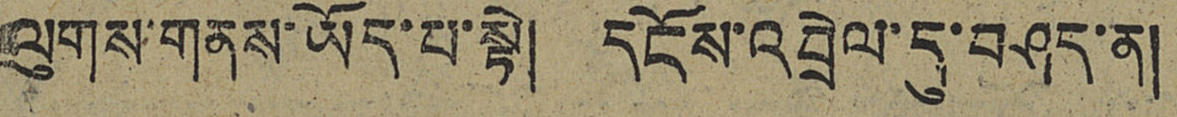ལུགས་གནས་ཡོད་པ་སྟེ། དངོས་འབྲེལ་དུ་བཤད་ན།
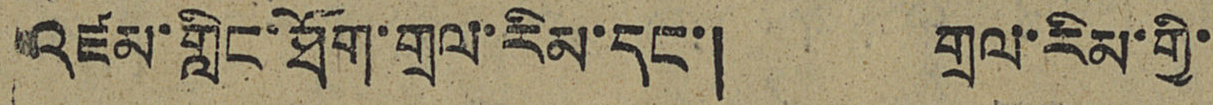འཛམ་གླིང་ཐོག་གྲལ་རིམ་དང་། གྲལ་རིམ་གྱི་
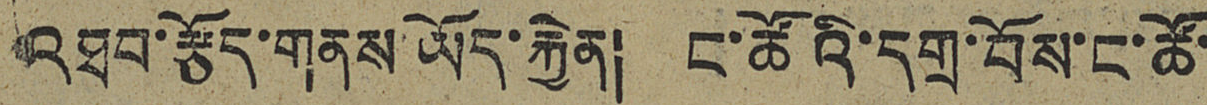འཐབ་རྩོད་གནས་ཡོད་རྐེན། ང་ཚོའི་དགྲ་བོས་ང་ཚོ་
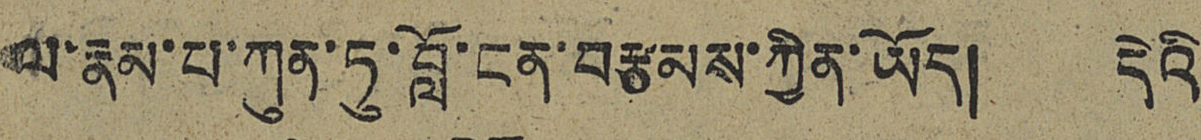ལ་རྣམ་པ་ཀུན་ཏུ་བློ་ངན་བརྩམས་ཀྱིན་ཡོད། དེའི
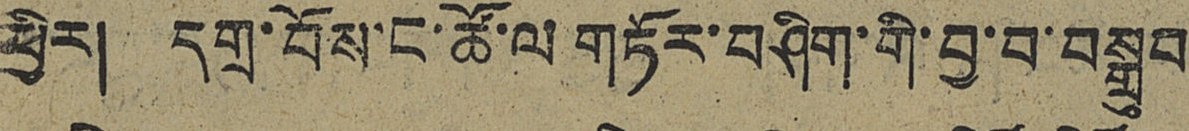ཕྱིར། དགྲ་བོས་ང་ཚོ་ལ གཏོར་བཤིག་གི་བྱ་བ་བསྒྲུབ
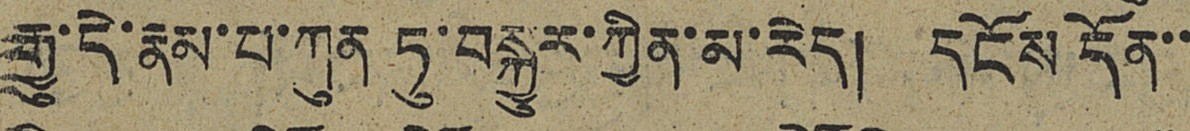རྒྱུ་དེ་རྣམ་པ་ཀུན་ཏུ་བསྐྱུར་ཀྱིན་མ་རེད། དངོས་དོན་་
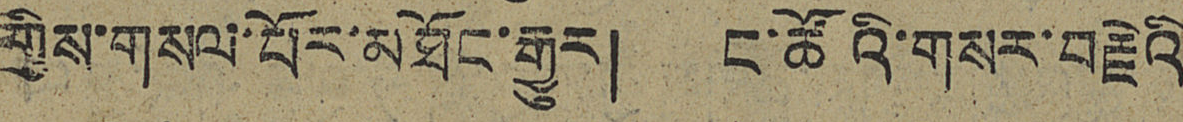གྱིས་གསལ་པོར་མཐོང་རྒྱུར། ང་ཚོའི་གསར་བརྗེའི
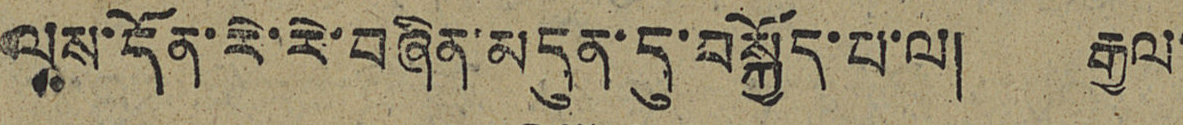ལས་དོན་རེ་རེ་བཞིན་མདུན་དུ་བསྐྱོད་པ་ལ། རྒྱལ་
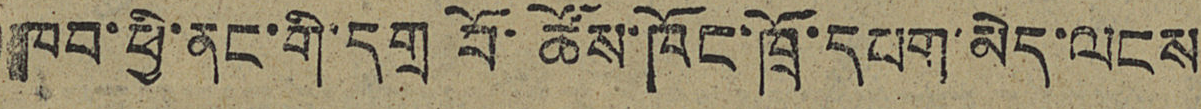ཁབ་ཕྱི་ནང་གི་དགྲ བོ་ཚོས་ཁོང་ཁྲོ་དཔག་མེད་ལངས
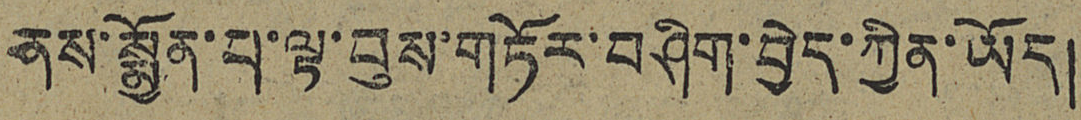ནས་སྨྱོན་པ་ལྟ་བུས་གཏོར་བཤིག་བྱེད་ཀྱིན་ཡོད།
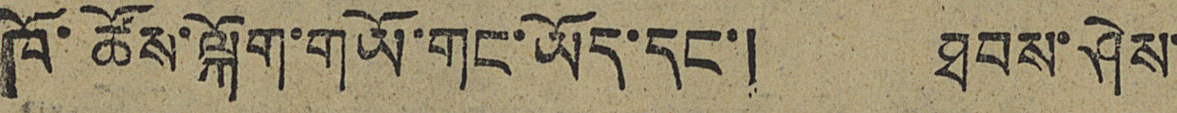ཁོ་ཚོས་ལྐོག་གཡོ་གང་ཡོད་དང་། ཐབས་ཤེས་
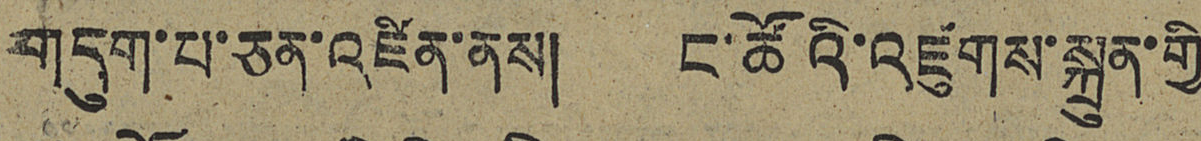གདུག་པ་ཅན་འཛིན་ནས། ང་ཚོའི་འཛུགས་སྐྲུན་གྱི
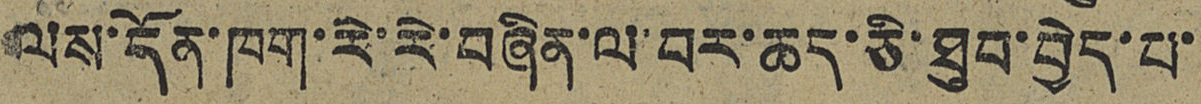ལས་དོན་ཁག་རེ་རེ་བཞིན་ལ་བར་ཆད་ཅི་ཐབ་བྱེད་པ་
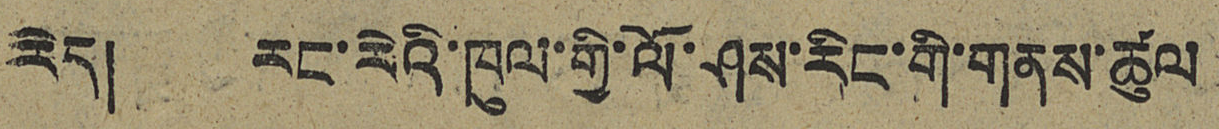རེད། རང་རེའི་ཁུལ་གྱི་ལོ་ཤས་རིང་གི་གནས་ཚུལ
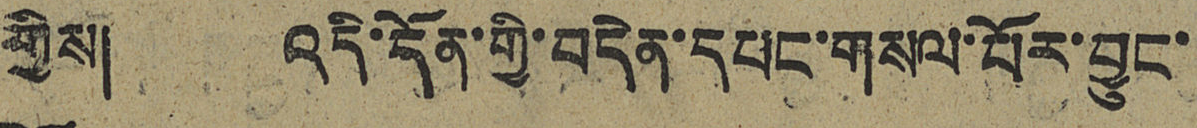གྱིས། འདི་དོན་གྱི་བདེན་དཔང་གསལ་པོར་བྱུང་
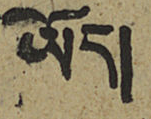ཡོད།
